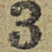3
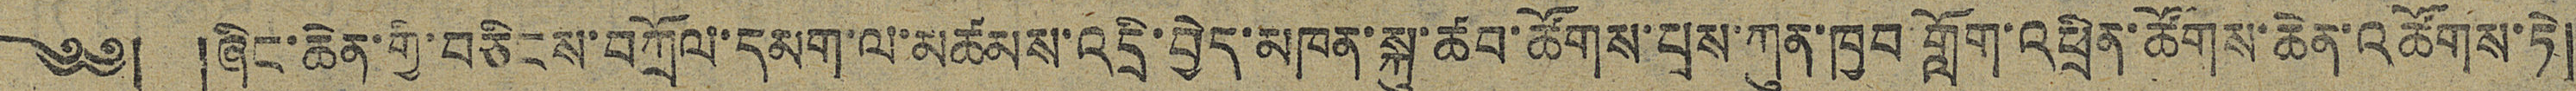༄༅། །ཞིང་ཆེན་གྱི་བཅིངས་བཀྲོལ་དམག་ལ་མཚམས་འདྲི་བྱེད་མཁན་སྐུ་ཚབ་ཚོགས་པས་ཀུན་ཁྱབ་གློག་འཕྲིན་ཚོགས་ཆེན་འཚོགས་ཏེ།
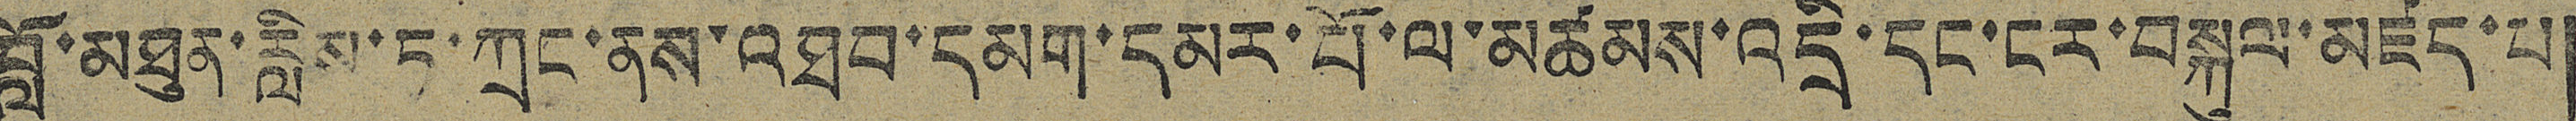བློ་མཐུན་རླིས་ཏ་ཀྲང་ནས་འཐབ་དམག་དམར་པོ་ལ་མཚམས་འདྲི་དང་ངར་བསྐུལ་མཛད་པ།
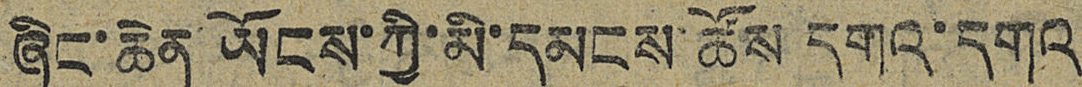ཞིང་ཆེན་ཡོངས་ཀྱི་མི་དམངས་ཚོས དགའ་དགའ
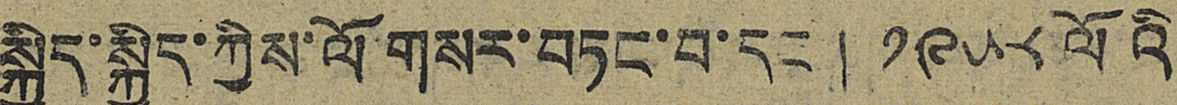སྐྱིད་སྐྱིད་ཀྱིས་ལོ་གསར་བཏང་བ་དང་། ༡༩༥༨ ལོའི་
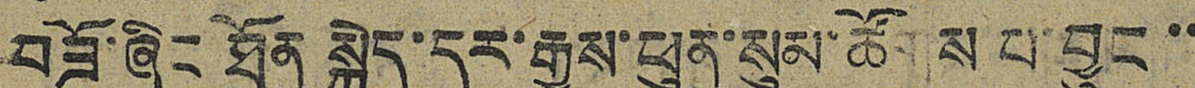བཟོ་ཞིང ཐོན སྐྱེད་དར་རྒྱས་ཕུན་སུམ་ཚོགས པ་བྱུང་་
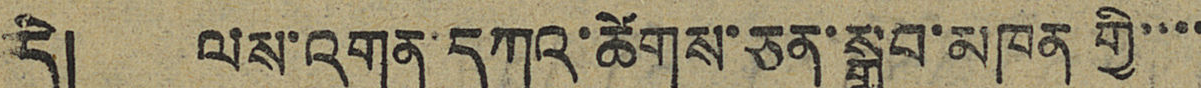དེ། ལས་འགན་དཀའ་ཚེགས་ཅན་སྒྲུབ་མཁན གྱི་་་་
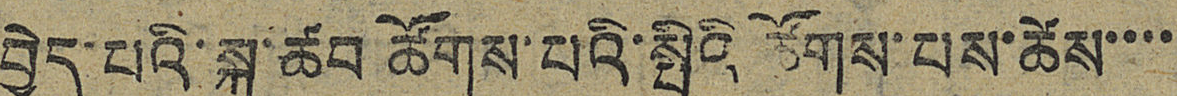བྱེད་པའི་སྐུ་ཚབ ཚོགས་པའི་སྤྱིའི་ཚོགས་པས་ཚེས་་་་་
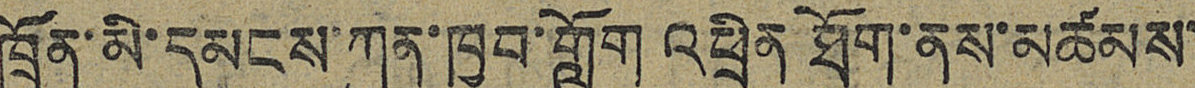ཁྲོན་མི་དམངས་ཀུན་ཁྱབ་གློག འཕྲིན ཐོག་ནས་མཚམས་
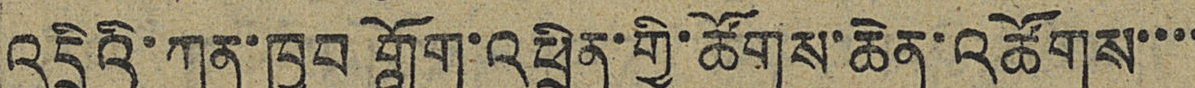འདྲིའི་ཀུན་ཁྱབ གློག་འཕྲིན་གྱི་ཚོགས་ཆེན་འཚོགས་་་་
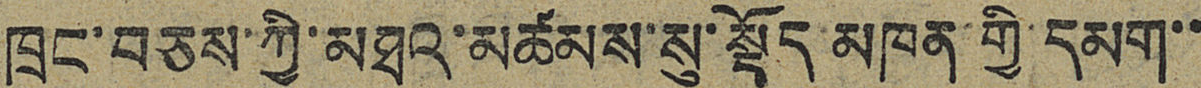ཁྲང་བཅས་ཀྱི་མཐའ་མཚམས་སུ་སྡོད་མཁན གྱི་དམག་་
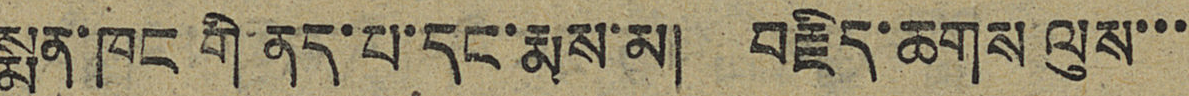སྨན་ཁང གི་ནད་པ་དང་རྨས་མ། བརྗིད་ཆགས་ལུས་་་
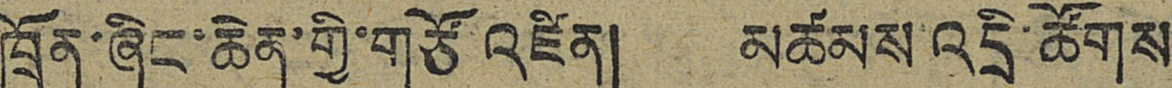ཁྲོན་ཞིང་ཆེན་གྱི་གཙོ་འཛིན། མཚམས་འདྲི་ཚོགས་
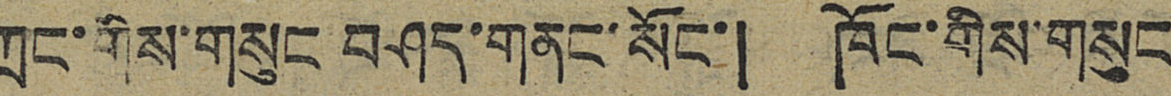ཀྲང་གིས་གསུང བཤད་གནང་སོང་། ཁོང་གིས་གསུང
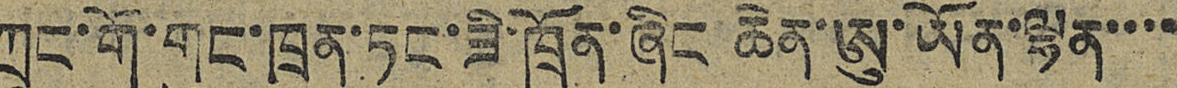ཀྲུང་གོ་གུང་ཁྲན་ཏང་ཟི་ཁྲོན་ཞིང ཆེན་ཨུ་ཡོན་ལྷན་་་་
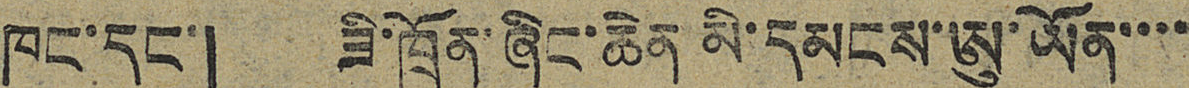ཁང་དང་། ཟི་ཁྲོན་ཞིང་ཆེན མི་དམངས་ཨུ་ཡོན་་་་
